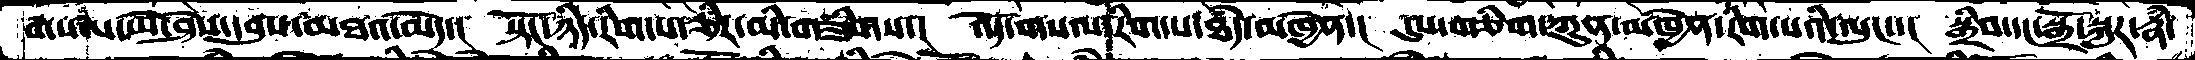གསལ་ཡེ་ཤེས་དབུས་མཐའ་མེད་།  སྟོང་ཉིད་རིག་པ་ཅིར་མི་གཟིགས་།  འོད་གསལ་རིག་པ་ཐཾད་མཁྱེན་།  དུས་གཅིག་ཀུན་མཁྱེན་རིག་པའི་ལུང་་།  སྒྲིབ་དང་སྒྲོ་སྐུར་རྣཾ་
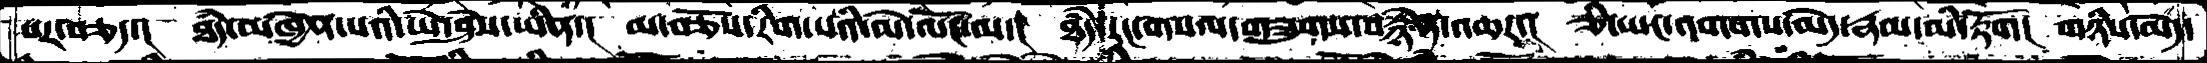པར་བཅད་།  ཐཾད་མཁྱེན་པའི་ཡེ་ཤེས་ཡིན་།  མ་བཅོས་རིག་པའི་མེ་ལོང་ལ་།  ཐཾད་རང་གསལ་གཟུགས་བརྙེན་འཆར་།  ཅི་ཡང་འགགས་མེད་རྣམ་མི་རྟོག།  གཉིས་མེད་
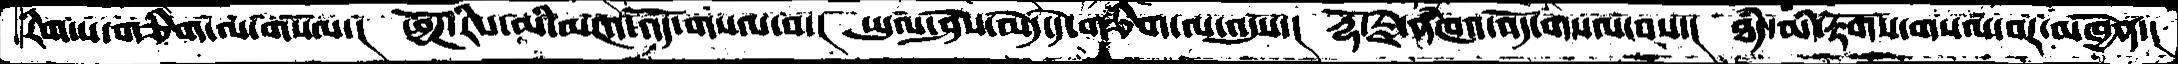རིག་པ་གཅིག་ལ་གསོལ་།  ཕྱོཌ་རིས་མི་མངའ་འོད་གསལ་བ་།  ཡུལ་ཤེས་མེད་དེ་གཅིག་ལ་འདུས་།  རྡོ་རྗེ་ནཾཁའ་འོད་གསལ་བས་།  ཐཾད་མི་རྟོགས་གསལ་བར་མཁྱེན་།
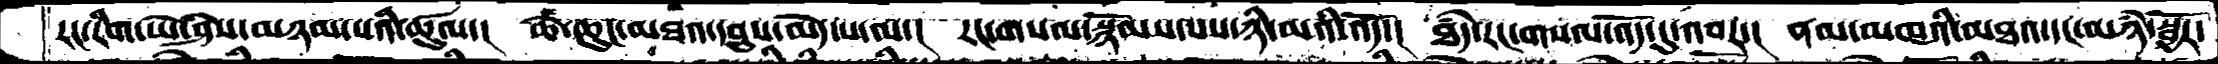རང་རིག་ཡེ་ཤེས་མཉམ་པའི་ཚུལ་།  ཆེ་ཆུང་མཐའ་དབུས་མེད་པ་ལ་།  རང་གསལ་སྙོམས་པས་ཉི་མའི་འོད་།  ཐཾད་རང་གསལ་འོད་དུ་འབར་།  ནམ་མཁའི་མཐའ་དང་མཉཾ་སྦྱོར་
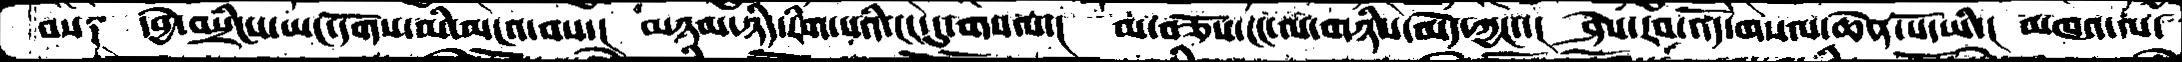བས༑  དབྱེ་བསྲིངས་ཡང་དོགས་མི་མངའ་བས་།  མཉམ་ཉིད་རིག་པའི་ངང་དུ་གསལ་།  མ་བཅོས་ངང་ལ་གཉིས་མེད་ཀྱང་་།  ཤེས་རབ་འོད་གསལ་ཆེན་པོ་ཡི་།  མཁའ་ལ་
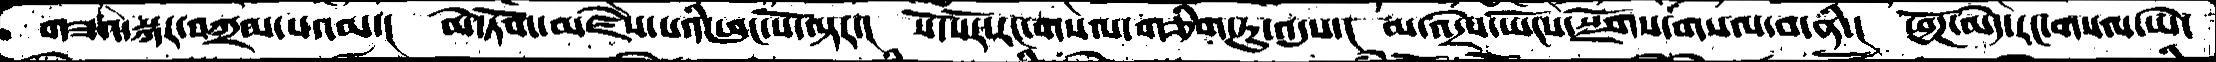གཟའ་སྐར་བཀྲམ་པའམ་།  མེ་ཏོག་མཛེས་པའི་ཕུང་པོ་ལྟར་།  སོ་སོར་རང་གསལ་གཅིག་ཏུ་འདུས་།  མ་འདྲེས་ཡོངས་སྫོགས་གསལ་བ་ནི་།  ཕྱོཌ་མེད་རང་གསལ་ཡེ་
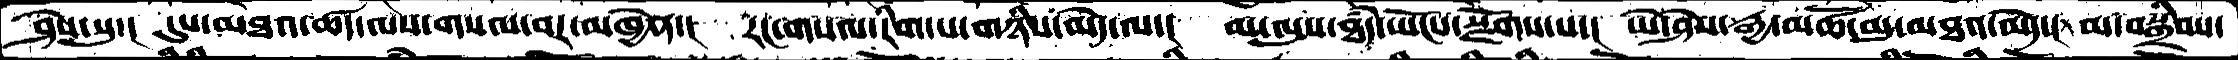ཤེས་སུ་།  དུས་མཐའ་ཚད་ལས་གསལ་བར་མཁྱེན་།  རང་གསལ་རིག་པ་གཉིས་མེད་ལ་།  མ་ལུས་ཐཾད་ཡོངས་སྫོགས་པ་།  ཡེ་ཤེས་རྒྱ་མཚོ་མུ་མཐའ་མེད་།  མ་བསྒྲིབས་
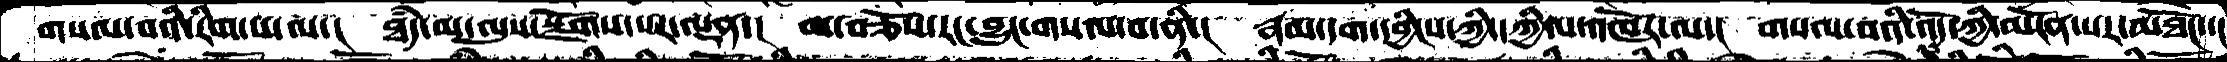གསལ་བའི་རིག་པ་ལ་།   ཐཾད་མ་ལུས་སྫོགས་པར་ལྡན་།  མ་བཅོས་རང་བྱུང་གསལ་བ་ནི་།  རྣམ་དག་དབྱིངས་ཀྱི་དཀྱིལ་འཁོར་ལ་།  གསལ་བའི་འོད་ཀྱི་མངོན་པར་མཐོང་་།
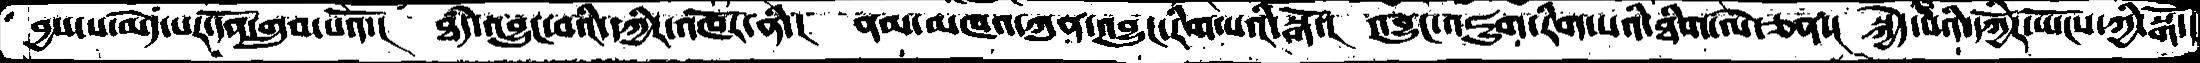བྱས་པ་མེད་པར་དོན་གྲུབ་པའོ་།  ཐཾད་འབྱུང་བའི་དཀྱིལ་འཁོར་ནི་།   ནམ་མཁའ་ཀུན་འབྱུང་རིག་པའི་སྒོ་།  འབྱུང་འཇུག་རིག་པའི་ཐིག་ལེ་ཅན་།  སྐྱེད་པའི་དཀྱིོར་ཡོངས་ཀྱི་སྒོ་།
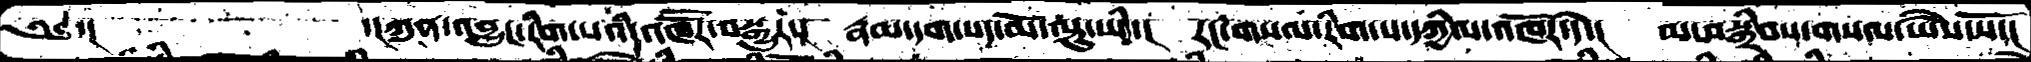༄༅་།        ་།ཀུན་འབྱུང་རིག་པའི་འཁཽར་བསྒྱུར་།  རྣམ་དག་པད་མོ་ལྟུ་ཡི་།  རང་གསལ་རིག་པ་དཀྱིལ་འཁོར་དེ་།  མ་བསྒྲིབས་གསལ་ཡཻས་སོང།
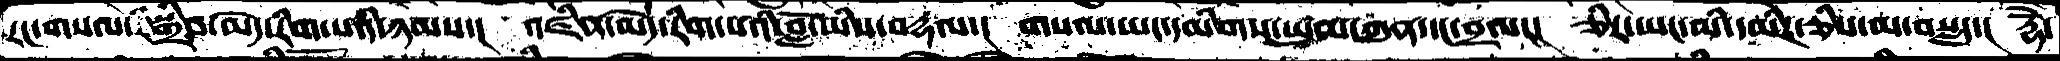རང་གསལ་སྒྲིབ་མེད་རིག་པའི་ཉམས་།  འཛིན་མེད་རིག་པའི་བློ་ཡིས་བརྡལ་།  གསལ་ཡང་དམིགས་ཡུལ་ཀུན་དང་བྲལ་།  ཅིར་ཡང་མི་དམིགས་ཅིས་མ་བསླད་།  རྡོེ་
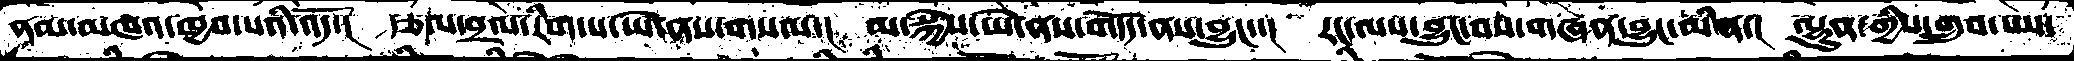ནམ་མཁའ་ཁྱབ་པའི་འོད་།  རྩལ་བྲལ་རིག་པ་ཡེ་ནས་གསལ་།   མ་སྐྱེས་ཡེ་ནས་གདོད་ནས་བྱུང་་།  རང་ལས་བྱུང་བས་གཞན་བྱུང་མིན་།  ལྷུན་གྱིས་གྲུབ་པས་
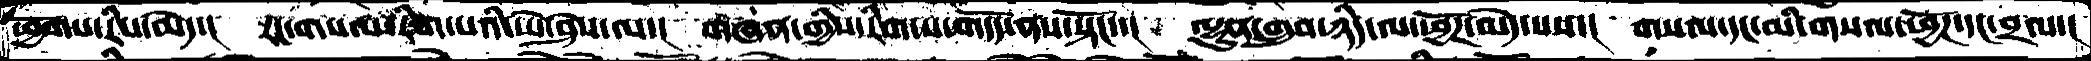ཕྱོགས་རིས་མེད་།  རང་གསལ་རིག་པའི་ཡེ་ཤེས་ལ་།  གཞན་གྱིས་རིག་པ་གདོད་ནས་སྟོང་་།  ལྷུན་གྲུབ་ཉིད་ལ་ཕྱོཌ་མེད་པས་།  གསལ་དང་མི་གསལ་ཕྱོཌ་དང་བྲལ་།
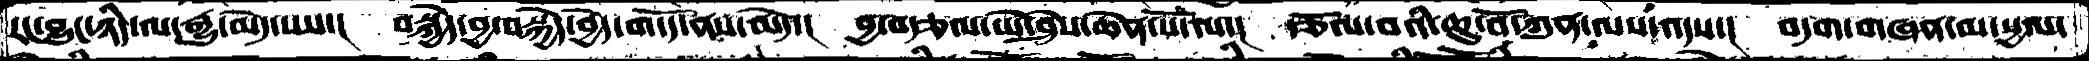རང་བྱུང་ཉིད་ལ་རྒྱུ་མེད་པས་།  བསྐྱེད་བྱ་བསྐྱེད་བྱེད་གདོད་ནས་མེད་།  བྱ་བརྩལ་ཡེ་ཤེས་ཆེན་པོ་ལ་།  རྩོལ་བའི་ཆུ་བོ་ཀུན་ལས་འདས་།  བདག་གཞན་མ་སྱལ་
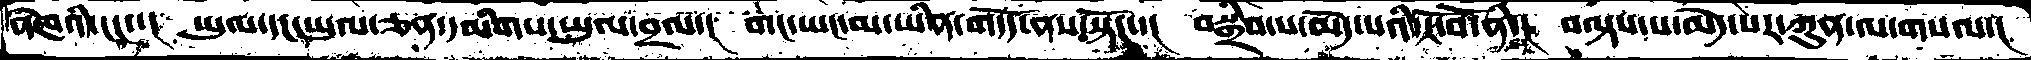ནཾཁའི་ངང་་།  ཡུལ་དང་ཡུལ་ཅན་དམིགས་ཡུལ་བྲལ་།  གང་ཡང་མ་ཡིན་གདོད་ནས་སྟོང་་།  བསྒྲིབ་པ་མེད་པའི་ངོ་བོ་ནི་།  བལྟས་པ་མེད་པར་ཀུན་ལ་གསལ་།
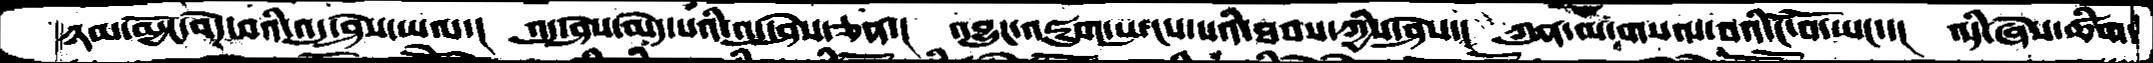ཉམ་མྱོང་བདེ་བའི་འདུ་ཤེས་ཡལ་།  འདུ་ཤེས་མེད་པའི་འདུ་ཤེས་ཅན་།  འབྱུང་འཇུག་སྤངས་པའི་ཐབས་ཀྱིས་ཤེས་།  ཀུན་ལ་གསལ་བའི་ངོ་བོ་ཡང་་།  འདི་ཞེས་ཚིག་
